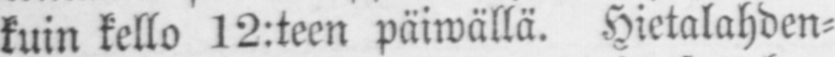kuin kello 12:teen päiwällä. Hietalahden-
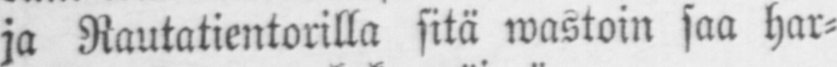ja Rautatientorilla sitä wastoin saa har-
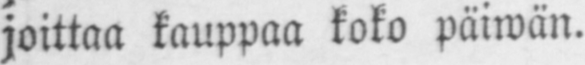joittaa kauppaa koko päiwän.
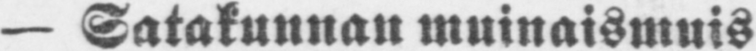— Satakunnan muinaismuis-
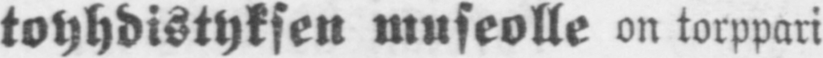toyhdistyksen museolle on torppari
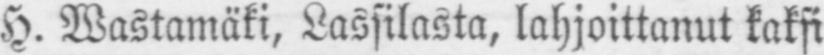H.Wastamäki, Lassilasta, lahjoittanut kaksi
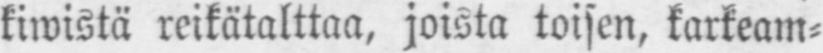kiwistä reikätalttaa, joista toisen, karkeam-
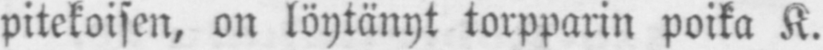pitekoisen, on löytänyt torpparin poika K.
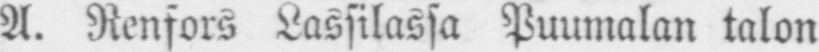A. Renfors Lassilassa Puumalan talon
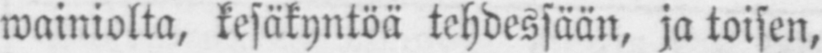wainiolta, kesäkyntöä tehdessään, ja toisen,
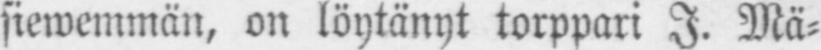siewemmän, on löytänyt torppari I. Mä-
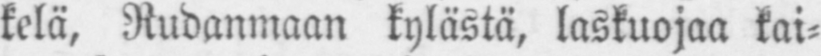kelä, Rudanmaan kylästä, laskuojaa kai-
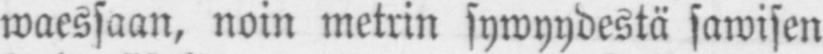waessaan, noin metrin sywyydestä sawisen
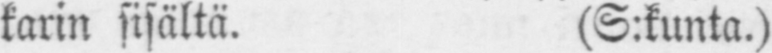karin sisältä. (S:kunta.)
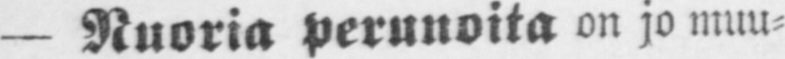— Nuoria perunoita on jo muu-
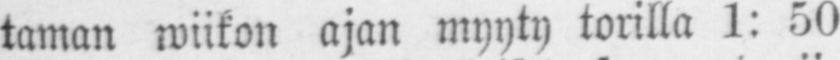taman wiikon ajan myyty torilla 1: 50
